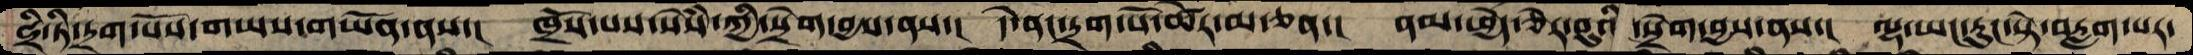ཧྲི་ཏི་དྲག་པོས་གཡས་གཡོན་ནས་།  ཁྲོས་པས་སེཾས་ཀྱི་སྲེག་བྱས་ནས་།  དེ་ནང་དྲག་པོ་ཚེར་མ་ཅན་།  ནམ་ཕྱེད་ཅེར་བུའི་སྲེག་བྱས་ནས་།  ལྷ་ཡང་རུང་སྟེ་བརླག་པར་
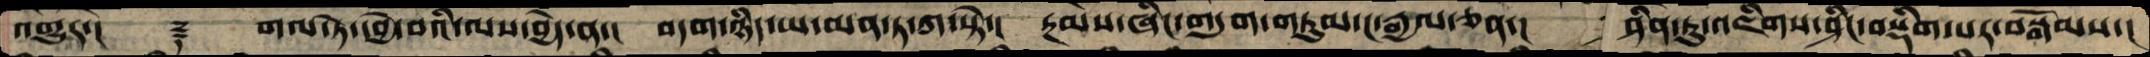འགྱུར་།  ࿑  གལ་ཏེ་དབྱེ་བའི་ལས་བྱེད་ན་།  བདག་ཉིད་ཡ་མན་ཏ་ཀ་སྟེ་།  རྔམས་ཞིང་གདུག་གཏུམ་ང་རྒྱལ་ཅན་།  ཤིན་ཏུ་འཇིགས་ཤིང་བསྡིག་པར་བསྒོམས་།
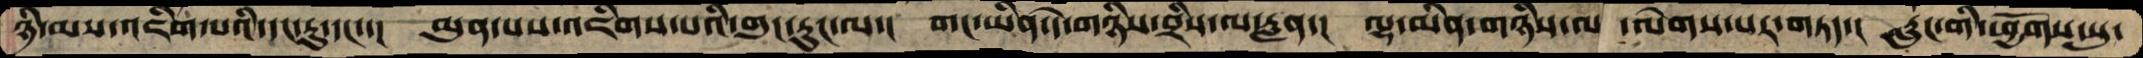ཉི་མས་འཇིག་པའི་དང་རུ་དང་་།  མུན་པས་འཇིགས་པའི་གུང་རུང་ལ་།  གང་ཡིན་དེ་གཉིས་བྲིས་ལ་རླན་།  ལྷ་མིན་གཉིས་ལ ་ལེགས་པར་གཏད་།  རླུང་གི་ཕྱོགས་སུ་
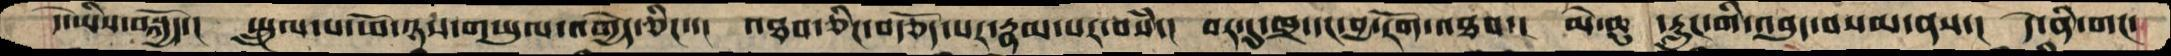དེ་ཡིས་བསྐྱོད་།  སྤྲུལ་པ་ཕོ་ཉས་གཡུལ་འགྱེད་ཅིང་་།  འཐབ་ཅིང་བརྩོད་པར་རྣམ་པར་བསཾ་།  བར་དུ་ཁྲ་དང་བྱ་རོག་འཐབ་།  མེ་ཆུ ་རླུང་གི་འབུད་བསམ་ནས་།  དེ་ནི་གང་
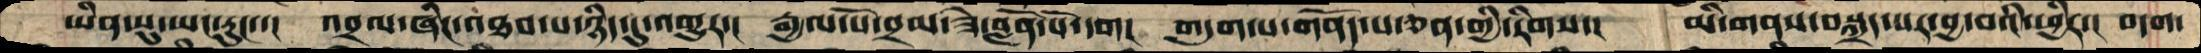ཡིན་སུ་ཡང་རུང་་།  འབྲལ་ཞིང་འཐབ་པ་ཉིད་དུ་འགྱུར་།  རྒྱལ་པོ་བྲམ་ཟེ་བློན་པོ་དག།  གདུག་པ་གནོད་པ་ཅན་གྱི་རིགས་།  མི་གནས་བསྐྲད་པར་བྱ་བའི་ཕྱིར་།  བདག་
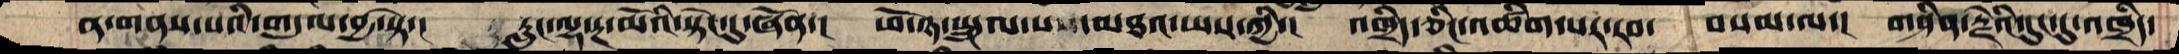ན་གནས་པའི་གདུལ་བྱ་སྟེ་།  རླུང་ལྷ་རྔ་མོའི་སྟེང་དུ་ཞོན་།  ཕོ་ཉ་སྤྲུལ་པ་མཐའ་ཡས་ཀྱི་།  འཁྲིད་ཅིང་འཚིག་པར་རབ་  བསམ་ལ་།  གཤིན་རྗེའི་དུང་དུ་འཁྲིད་
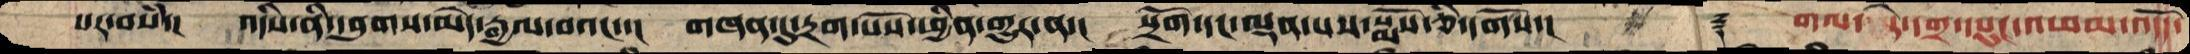པར་བསཾ་།  འདིས་ནི་དབུགས་མེད་རྒྱལ་བའང་་།  གཞན་དུ་དྲག་པོས་ཕྱིན་གྱུར་ན་།  སྲོག་དང་ལྡན་པས་སྨོས་ཅི་དགོས་།   ࿑   གལ་ཏེ་དགྲ་དཔུང་འཕམ་འདོད་
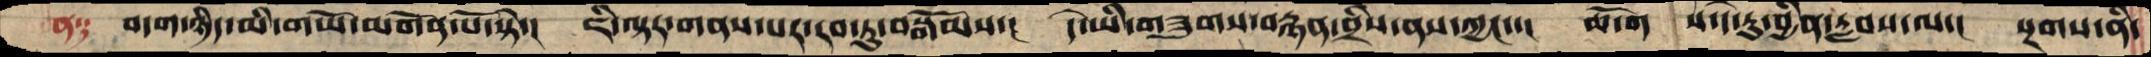ན༑   བདག་ཉིད་མི་གཡོ་མགོན་པོ་སྟེ་།  ཇི་ལྟར་གནས་པར་རབ་ཏུ་བསྒོམས་།  དེ་ཡི་གཟུགས་བརྙན་བྲིས་ནས་ཀྱང་་།  ཆོ་ག  ས་དེ་རུ་བྱིན་རླབས་ལ་།  སྔགས་ནི་
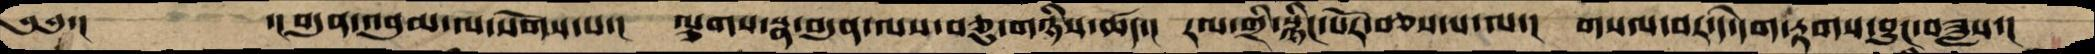༄༅་།     ་།བདུན་འབུམ་ལ་སོགས་པ་།  ལྕགས་སྣ་བདུན་ལས་བཅུ་གཉིས་ཚད་།  རལ་གྲི་སྙིང་པོར་བཅས་པ་ལ་།  གསལ་བར་དེ་དག་རྟགས་བྱུང་བཟླས་།
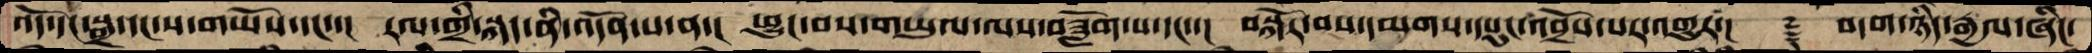འོད་དང་སྒྲ་དང་ས་གཡོས་དང་་།  རལ་གྲི་སྐད་ནི་འདོན་པ་ན་།  ཕྱུང་བས་གཡུལ་ལས་བཟློག་པ་དང་་།  བསྐོར་བས་དམག་དཔུང་འབྲོས་པར་འགྱུར་།  ࿑  བདག་ཉིད་རྒྱལ་ཞིང་
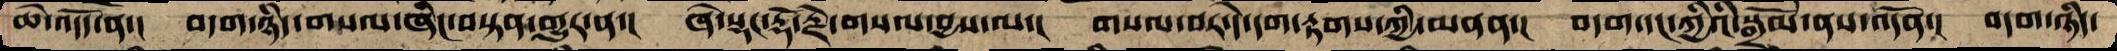ཆེ་འདོད་ན་།  བདག་ཉིད་གསལ་ཞིང་བསྟན་གྱུར་ན་།  ཞེ་སྡང་རྡོ་རྗེ་གསལ་བྱས་ལ་།  གསལ་བར་དེ་དག་རྟགས་ཀྱི་མནན་།  བདག་དང་ཀྱིའི་སྒྲོམ་ནས་འདོན་།  བདག་ཉིད་
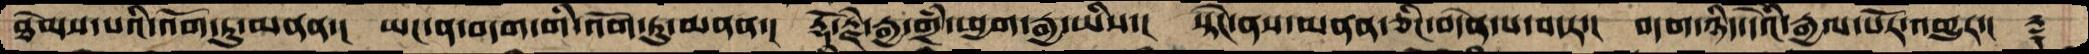ཐེམས་པའི་འོག་ཏུ་མནན་།  ཡང་ན་བདག་གི་འོག་ཏུ་མནན་།  རྡོ་རྗེ་རྒྱ་གྲཾ་ཕྱག་རྒྱ་ཡིས་།  སྟེང་ནས་མནན་ཅིང་བདེན་པ་བདར་།  བདག་ཉིད་དེའི་རྒྱལ་པོར་གྱུར་།  ࿑
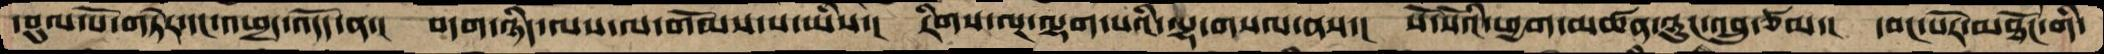དབུལ་པོ་གཏེར་དང་འཕྲད་འདོད་ན་།  བདག་ཉིད་ལས་ལ་གོམས་པ་ཡིས་།  རིགས་ལྔ་ལྷག་པའི་ལྷ་གསལ་ནས་།  སོ་སོའི་ཕྱག་མཚན་ཉུང་འབྲུ་ཙམ་།  དབང་པོར་མཐོང་གི་
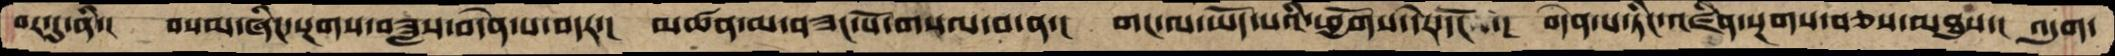བར་དུ་ནི་།  བསམ་ཞིང་སྔགས་བཟླས་བདེན་པ་བདར་།  མཚན་མ་བཟང་པོ་གསལ་བ་ན་།  གང་ལ་ཡོད་པའི་ཕྱོགས་དེར་དོང ་།  བདེན་པ་ཏིང་འཛིན་སྔགས་བཅས་མཐུས་།  འདུག་
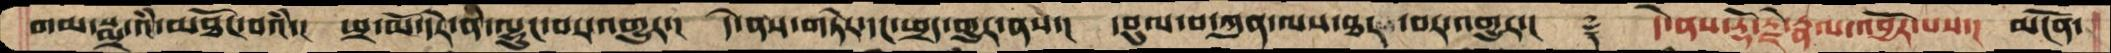གམ་སྨྲ་འཾ་མཐོང་བའཾ་།  ཕྲ་མོ་དེར་ནི་ལྷུང་བར་འགྱུར་།  དེ་ནས་གཏེར་དང་ཕྲད་གྱུར་ནས་།  དབུལ་བ་ཀུན་ལས་ཐར ་བར་འགྱུར་།  ࿑   དེ་ནས་རྡོ་རྗེ་རྣལ་འབྱོར་པས་།  མངོན་
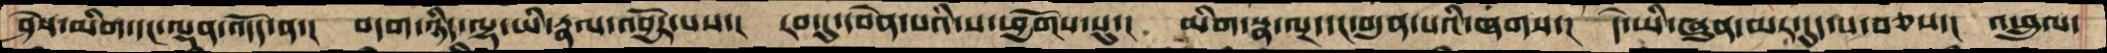ཤེས་མིག་དང་ལྡན་འདོད་ན་།  བདག་ཉིད་ལྷ་ཡི་རྣལ་འབྱོར་པས་།  རབ་དུ་དབེན་པའི་ས་ཕྱོགས་སུ་།  མིག་སྣ་ལྔ་དང་བདུན་པའི་ཞགས་།  དེ་ཡི་ཞུན་མར་དུད་པ་བཅས་།  འཕྲུལ་
